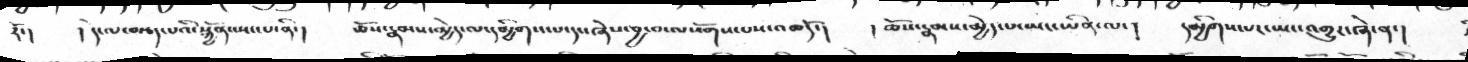རོ་།  ། དེ་ལ་བརྩད་པའི་སྐྱོན་སྤང་པ་ནི་།  ཆོས་རྣམས་མྱེད་ལ་དམྱིགས་པ་དང་ཞེས་བྱ་བ་ལསོགས་པས་འཆདོ་།  ། ཆོས་རྣམས་མྱེད་པ་ཡང་ཡིན་ལ་།  དམྱིགས་པར་ཡང་འགྱུར་ཞེ་ན་།
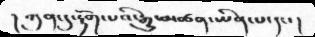།  ཀུན་དུ་རྟོག་པའི་རྒྱུ་མཚན་ཡིན་པ་དང་།
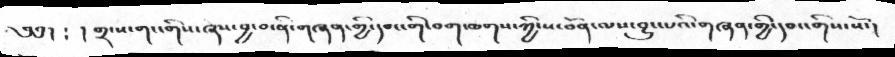༄༅་། ༴ ། གྲངས་གང་གིས་ཞེས་བྱ་བ་ནི་གཞན་གྱི་དབང་གི་བག་ཆགས་ཀྱི་ས་བོན་ལས་བྱུང་པའི་གཞན་གྱི་དབང་གིས་སོ་།
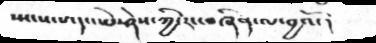སྤངས་པ་དང་ཡེ་ཤེས་ཀྱི་རང་་བཞིན་ལ་བྱའོ་།
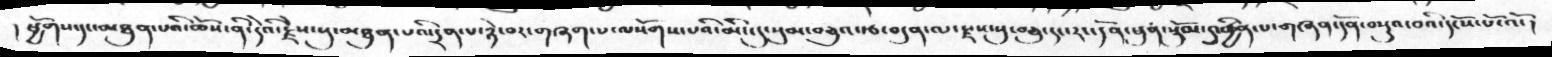། ཕྱོགས་དང་མཐུན་པའི་ཆོས་ནི་དེའི་རྗེས་སུ་མཐུན་པའི་དྲན་པ་ཉེ་བར་གཞག་པ་ལསོགས་པའི་མིང་དུ་སུམ་བཅུའ་རྩ་བདུན་ལ་རྫས་སུ་བཅུ་དང་རང་དོན་ཕུན་སྡོུམ་དུ་ཕྱིན་པ་གཞན་དོན་བསྡུའ་བའི་དངོས་པོ་འོ་།
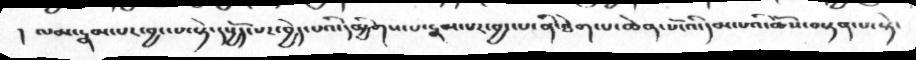། ལམ་རྣམ་པར་བྱང་པ་སྟེ་དཔྱོད་པར་བྱེད་པའི་དམྱིགས་པ་རྣམ་པར་བྱང་པ་ནི་ཐེག་པ་ཆེན་པོ་འི་དམ་པའི་ཆོས་བསྟན་པ་སྟེ་
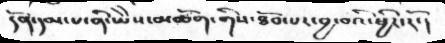དོན་དམ་པ་ནི་ཡཻས་མཆོག་གིས་ཐོབ་པར་བྱ་བའི་ཕྱིར་རོ་།
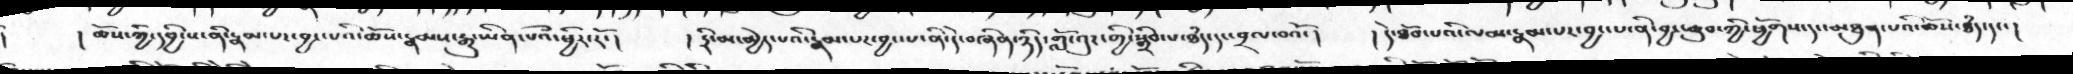།   ། ཆོས་ཀྱི་དབྱིངས་ནི་རྣམ་པར་བྱང་པའི་ཆོས་རྣམས་རྒྱུ་ཡིན་པའྀ་ཕྱིར་རོ་།   ། དྲི་མ་མྱེད་པའི་རྣམ་པར་བྱང་པ་ནི་དེ་བཞིན་ཉིད་གློ་འུར་གྱི་སྒྲིབ་པ་ཐཾད་དང་བྲལ་བའོ་།  ། དེ་ཐོབ་པའི་ལམ་རྣམ་པར་བྱང་པ་ནི་བྱང་ཆུབ་ཀྱི་ཕྱོགས་དང་མཐུན་པའི་ཆོས་ཐཾད་དང་།
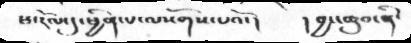ཕ་རོལ་དུ་ཕྱིན་པ་ལསོགས་པའོ་།   །བྱང་ཆུབ་ནི་
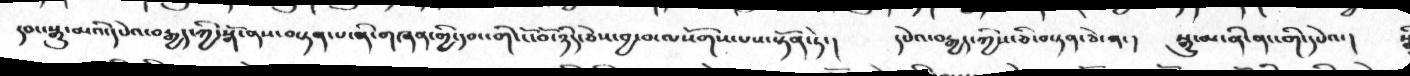དབང་སྒྱུ་མའི་དཔེའ་བརྒྱད་ཀྱི་སྒོ་ནས་བསྟན་པ་ནི་གཞན་གྱི་དབང་གི་ངོ་བོ་ཉིད་ཅེས་བྱ་བ་ལསོགས་པས་སྟོན་ཏེ་།  དཔེའ་བརྒྱད་ཀྱིས་ཅི་བསྟན་ཅེ་ན་།  སྒྱུ་མ་ནི་ནང་གི་དཔེའ་།
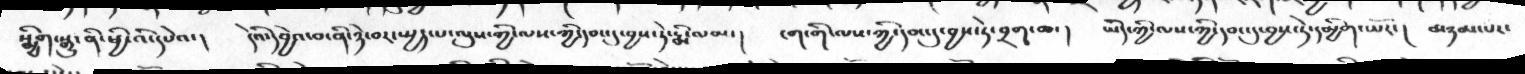སྨྱིག་སྒྱུ་ནི་ཕྱི་འི་དཔེའ་།   དེའི་དབྱེའ་བ་ནི་ཉེ་བར་སྤྱད་པ་ལུས་གྱི་ལས་ཀྱི་དབང་དུ་བྱས་ཏེ་རྨི་ལམ་།  ངག་གི་ལས་ཀྱི་དབང་དུ་བྱས་ཏེ་བྲག་ཆ་།  ཡིད་ཀྱི་ལས་ཀྱི་དབང་དུ་བྱས་ཏེ་དམྱིག་ཡོར་།  མཉམ་པར་
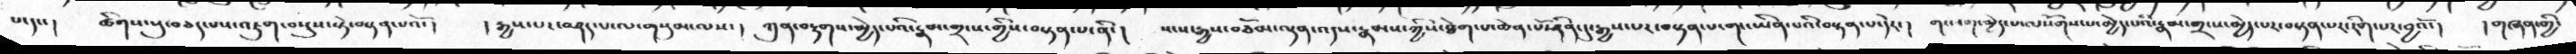པ་དང་།   ཚིགས་སུ་བཅད་པས་འཇུག་བསྡུས་སྟེ་བསྟན་པའོ་།   །རྒྱས་པར་བཤད་པ་ལ་གསུམ་ལས་།   ཀུན་བརྟགས་མྱེད་པའི་རྣམ་གྲངས་གྱིས་བསྟན་པ་ནི་།   སངས་རྒྱས་བཅོམ་ལྡན་འདས་རྣམས་ཀྱིས་ཐེག་པ་ཆེན་པོ་ཤིན་དུ་རྒྱས་པར་བསྟན་པ་གང་ཡིན་པའི་བསྟན་པ་དེར་།  གང་དག་མྱེད་པ་ལསོགས་པ་མྱེད་པའི་རྣམ་གྲངས་མྱེད་པར་བསྟན་པར་རིག་པར་བྱའོ་།  །གཞན་གྱི་
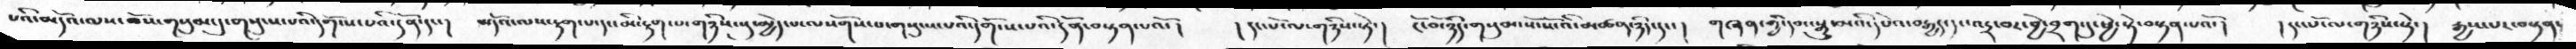པའི་མདོའ་ལས་ཆོས་གསུམ་དུ་གསུངས་པའི་དགོངས་པའི་དོན་དང་།   མདོའ་ལས་རྟག་པ་དང་མི་རྟག་པ་གཉིས་སུ་མྱེད་པ་ལསོགས་པ་གསུངས་པའི་དགོངས་པའི་དོན་བསྟན་པའོ་།  །དང་པོ་གཉིས་ཏེ་།  ངོ་བོ་ཉིད་གསུམ་སོ་སོ་འི་མཚན་ཉིད་དང་།  གཞན་གྱི་དབང་སྒྱུ་མའི་དཔེའ་བརྒྱད་དང་འདྲ་བར་བྱེ་བྲག་དུ་ཕྱེ་སྟེ་བསྟན་པའོ་།  །དང་པོ་གཉིས་སྟེ་།   རྒྱས་པར་བསྟན་
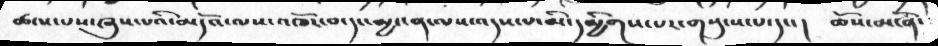ཚངས་པས་ཞུས་པའི་མདོའ་ལས་འཁོར་བ་དང་མྱ་ངན་ལས་འདས་པ་མི་དམྱིགས་པར་གསུངས་པ་དང་།  ཆོས་མངོན་
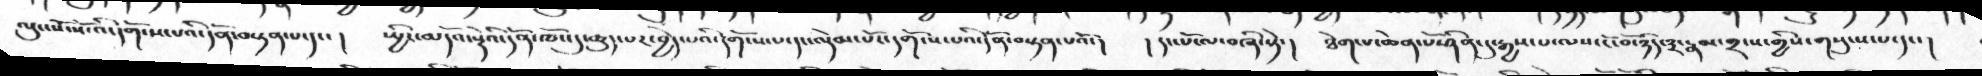ལུང་སོ་སོ་འི་དགོངས་པའི་དོན་བསྟན་པ་དང་།  སྤྱིར་མདོའ་སྡེའི་དོན་ཁོང་དུ་ཆུད་པར་བྱེད་པའི་དགོངས་པ་དང་ལྡེམ་པོར་དགོངས་པའི་དོན་བསྟན་པའོ་།   ། དང་པོ་ལ་བཞི་སྟེ་།  ཐེག་པ་ཆེན་པོ་ཤིན་དུ་རྒྱས་པ་ལས་ངོ་བོ་ཉིད་༣་རྣམ་གྲངས་གྱིས་གསུངས་པ་དང་།
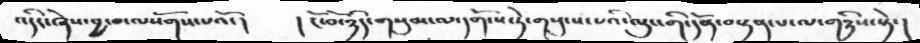འདིར་ཞེས་བྱ་བ་ལསོགས་པའོ་།     ། ངོ་བོ་ཉིད་གསུམ་ལ་དགོངས་ཏེ་གསུངས་པའི་ལུང་གི་དོན་བསྟན་པ་ལ་གཉིས་སྟེ་།
